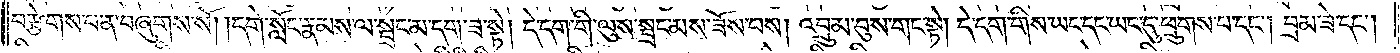བརྩེགས་པ་ན་བཞུགས་སོ། །དགེ་སློང་རྣམས་ལ་སྦྲང་མ་དག་ཟ་སྟེ། དེ་དག་གི་ལུས་སྦྲང་མས་ཟོས་པས། འབྲུམ་བུས་གང་སྟེ། དེ་དག་གིས་ཡང་དང་ཡང་དུ་ཕྲུགས་པ་དང༌། བྲམ་ཟེ་དང༌།
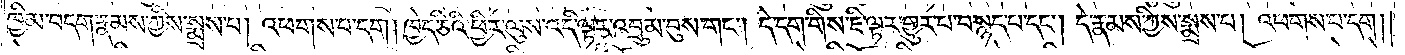ཁྱིམ་བདག་རྣམས་ཀྱིས་སྨྲས་པ། འཕགས་པ་དག། ཁྱེད་ཅིའི་ཕྱིར་ལུས་འདི་ལྟར་འབྲུམ་བུས་གང༌། དེ་དག་གིས་ཇི་ལྟར་གྱུར་བ་བསྙད་པ་དང༌། དེ་རྣམས་ཀྱིས་སྨྲས་པ། འཕགས་པ་དག།
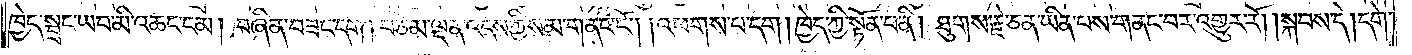ཁྱེད་སྦྲང་ཡབ་མི་འཆང་ངམ། བཞིན་བཟང་དག །བཅོམ་ལྡན་འདས་ཀྱིས་མ་གནང་ངོ༌། །འཕགས་པ་དག །ཁྱེད་ཀྱི་སྟོན་པ་ནི། ཐུགས་རྗེ་ཅན་ཡིན་པས་གནང་བར་འགྱུར་རོ། །སྐབས་དེ། དགེ་
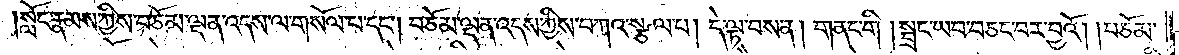སློང་རྣམས་ཀྱིས་བཅོམ་ལྡན་འདས་ལ་གསོལ་པ་དང༌། བཅོམ་ལྡན་འདས་ཀྱིས་བཀའ་སྩལ་པ། དེ་ལྟ་བས་ན། གནང་གི། སྦྲང་ཡབ་བཅང་བར་བྱའོ། །བཅོམ་
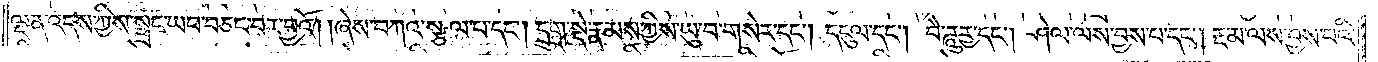ལྡན་འདས་ཀྱིས་སྦྲང་ཡབ་བཅང་བར་བྱའོ། །ཞེས་བཀའ་སྩལ་པ་དང༌། དྲུག་སྡེ་རྣམས་ཀྱིས་ཡུ་བ་གསེར་དང༌། དངུལ་དང༌། བཻཌཱུཪྻ་དང༌། ཤེལ་ལས་བྱས་པ་དང༌། རྔ་མ་ལས་བྱས་པའི་
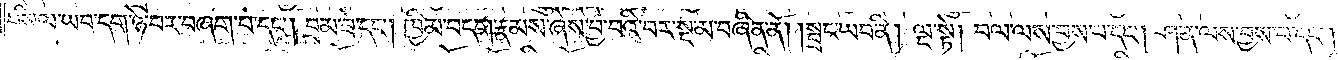བསིལ་ཡབ་དག་ཉེ་བར་བཞག་པ་དང༌། བྲམ་ཟེ་དང༌། ཁྱིམ་བདག་རྣམས་ཞེས་བྱ་བའི་བར་སྔ་མ་བཞིན་ནོ། །སྦྲང་ཡབ་ནི། ལྔ་སྟེ། བལ་ལས་བྱས་པ་དང༌། ཤ་ན་ལས་བྱས་པ་དང༌།
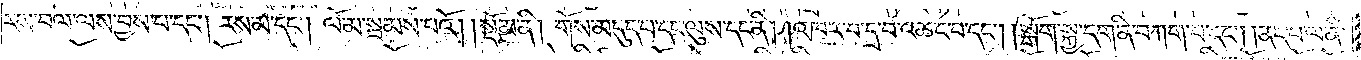རས་བལ་ལས་བྱས་པ་དང༌། རས་མ་དང༌། ལོ་མ་སྦམས་པའོ།    །སྡོམ་ནི། གོས་མདུད་པ་དང་ལུས་དང་ནི། །འཁར་བ་དྲ་བ་འཆང་བ་དང༌། །སྒོག་སྐྱ་དག་ནི་བཀག་པ་དང༌། །ནད་པ་ལ་ནི་
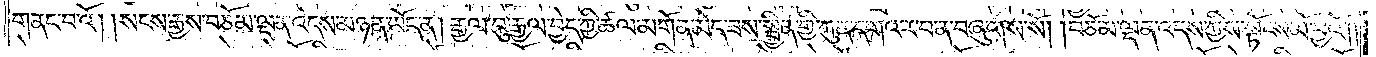གནང་བའོ། །སངས་རྒྱས་བཅོམ་ལྡན་འདས་མཉན་ཡོད་ན། རྒྱལ་བུ་རྒྱལ་བྱེད་ཀྱི་ཚལ་མགོན་མེད་ཟས་སྦྱིན་གྱི་ཀུན་དགའ་ར་བ་ན་བཞུགས་སོ། །བཅོམ་ལྡན་འདས་ཀྱིས་སྟོངས་མོ་བྱའོ༎
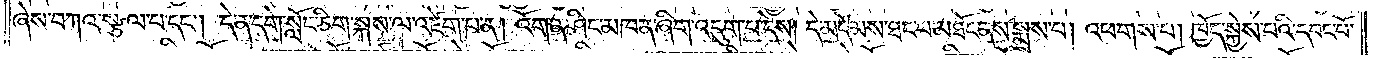ཞེས་བཀའ་སྩལ་པ་དང༌། དེ་ན་དགེ་སློང་ཅིག་སྐས་ལ་འཇོག་པ་ན། འོག་ན་ཤིང་མཁན་ཞིག་འདུག་པ་དེས། དེ་མདོམས་ཐང་བ་མཐོང་ནས་སྨྲས་པ། འཕགས་པ། ཁྱོད་སྐྱེས་པའི་དབང་པོ་
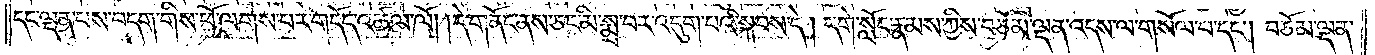དང་ལྡན་པས་བདག་གིས་ཕོ་ལགས་པར་གདོད་འཚལ་ལོ། །དེ་གནོང་ནས་ཅང་མི་སྨྲ་བར་འདུག་པའི་སྐབས་དེ། དགེ་སློང་རྣམས་ཀྱིས་བཅོམ་ལྡན་འདས་ལ་གསོལ་པ་དང༌། བཅོམ་ལྡན་
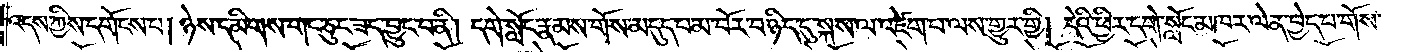འདས་ཀྱིས་དགོངས་པ། ཉེས་དམིགས་གང་ཅུང་ཟད་བྱུང་བ་ནི། དགེ་སློང་རྣམས་གོས་མདུད་པ་མ་བོར་བ་ཉིད་དུ་སྐས་ལ་འཛེག་པ་ལས་གྱུར་གྱི། དེའི་ཕྱིར་དགེ་སློང་མཁར་ལེན་བྱེད་པ་གོས་
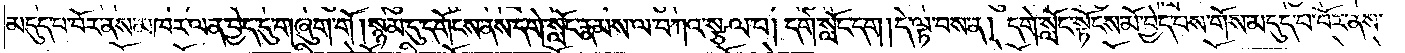མདུད་པ་བོར་ནས་མཁར་ལན་བྱེད་དུ་གཞུག་གོ །སྙམ་དུ་དགོངས་ནས་དགེ་སློང་རྣམས་ལ་བཀའ་སྩལ་པ། དགེ་སློང་དག །དེ་ལྟ་བས་ན། དགེ་སློང་སྟོངས་མོ་བྱེད་པས་གོས་མདུད་པ་བོར་ནས་
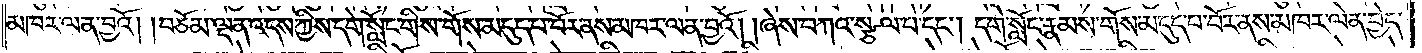མཁར་ལན་བྱའོ། །བཅོམ་ལྡན་འདས་ཀྱིས་དགེ་སློང་གིས་གོས་མདུད་པ་བོར་ནས་མཁར་ལན་བྱའོ། །ཞེས་བཀའ་སྩལ་པ་དང༌། དགེ་སློང་རྣམས་གོས་མདུད་པ་བོར་ནས་མཁར་ལེན་བྱེད་
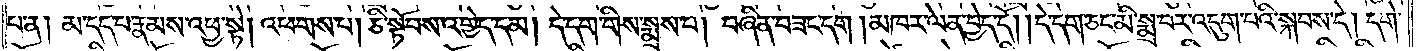པ་ན། མ་དད་པ་རྣམས་འཕྱ་སྟེ། འཕགས་པ། ཅི་སྟོབས་འགྱེད་དམ། དེ་དག་གིས་སྨྲས་པ། བཞིན་བཟང་དག །མཁར་ལེན་བྱེད་དོ། །དེ་དག་ཅང་མི་སྨྲ་བར་འདུག་པའི་སྐབས་དེ། དགེ་
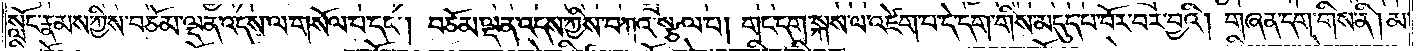སློང་རྣམས་ཀྱིས་བཅོམ་ལྡན་འདས་ལ་གསོལ་པ་དང༌། བཅོམ་ལྡན་འདས་ཀྱིས་བཀའ་སྩལ་པ། གང་དག་སྐབས་ལ་འཛེག་པ་དེ་དག་གིས་མདུད་པ་པོར་བར་བྱའི། གཞན་དག་གིས་ནི། མ་
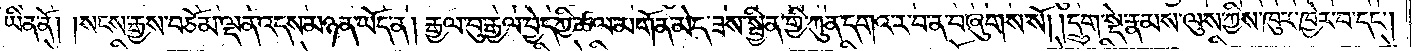ཡིན་ནོ། །སངས་རྒྱས་བཅོམ་ལྡན་འདས་མཉན་ཡོད་ན། རྒྱལ་བུ་རྒྱལ་བྱེད་ཀྱི་ཚལ་མགོན་མེད་ཟས་སྦྱིན་གྱི་ཀུན་དགའ་ར་བ་ན་བཞུགས་སོ། །དྲུག་སྡེ་རྣམས་ལུས་ཀྱིས་ཁུར་ཁྱེར་བ་དང༌།
